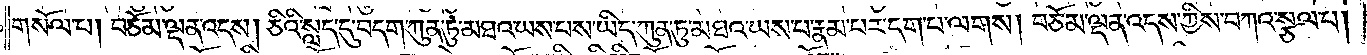གསོལ་པ། བཅོམ་ལྡན་འདས། ཅིའི་སླད་དུ་བདག་ཀུན་ཏུ་མཐའ་ཡས་པས། ཡིད་ཀུན་ཏུ་མཐའ་ཡས་པ་རྣམ་པར་དག་པ་ལགས། བཅོམ་ལྡན་འདས་ཀྱིས་བཀའ་སྩལ་པ།
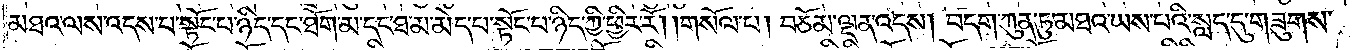མཐའ་ལས་འདས་པ་སྟོང་པ་ཉིད་དང་ཐོག་མ་དང་ཐ་མ་མེད་པ་སྟོང་པ་ཉིད་ཀྱི་ཕྱིར་རོ། །གསོལ་པ། བཅོམ་ལྡན་འདས། བདག་ཀུན་ཏུ་མཐའ་ཡས་པའི་སླད་དུ་གཟུགས་
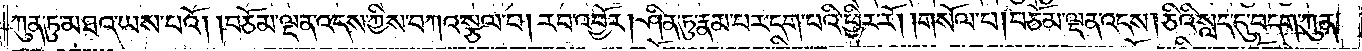ཀུན་ཏུ་མཐའ་ཡས་པའོ། །བཅོམ་ལྡན་འདས་ཀྱིས་བཀའ་སྩལ་པ། རབ་འབྱོར། ཤིན་ཏུ་རྣམ་པར་དག་པའི་ཕྱིར་རོ། །གསོལ་པ། བཅོམ་ལྡན་འདས། ཅིའི་སླད་དུ་བདག་ཀུན་
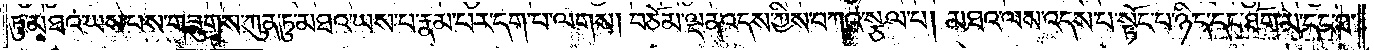ཏུ་མཐའ་ཡས་པས་གཟུགས་ཀུན་ཏུ་མཐའ་ཡས་པ་རྣམ་པར་དག་པ་ལགས། བཅོམ་ལྡན་འདས་ཀྱིས་བཀའ་སྩལ་པ། མཐའ་ལས་འདས་པ་སྟོང་པ་ཉིད་དང་ཐོག་མ་དང་ཐ་
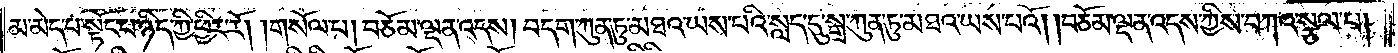མ་མེད་པ་སྟོང་པ་ཉིད་ཀྱི་ཕྱིར་རོ། །གསོལ་པ། བཅོམ་ལྡན་འདས། བདག་ཀུན་ཏུ་མཐའ་ཡས་པའི་སླད་དུ་སྒྲ་ཀུན་ཏུ་མཐའ་ཡས་པའོ། །བཅོམ་ལྡན་འདས་ཀྱིས་བཀའ་སྩལ་པ།
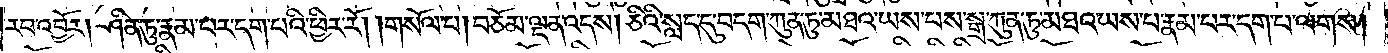རབ་འབྱོར། ཤིན་ཏུ་རྣམ་པར་དག་པའི་ཕྱིར་རོ། །གསོལ་པ། བཅོམ་ལྡན་འདས། ཅིའི་སླད་དུ་བདག་ཀུན་ཏུ་མཐའ་ཡས་པས་སྒྲ་ཀུན་ཏུ་མཐའ་ཡས་པ་རྣམ་པར་དག་པ་ལགས།
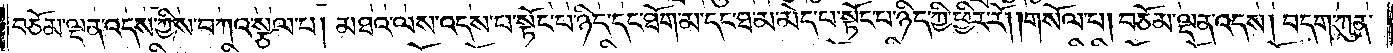བཅོམ་ལྡན་འདས་ཀྱིས་བཀའ་སྩལ་པ། མཐའ་ལས་འདས་པ་སྟོང་པ་ཉིད་དང་ཐོག་མ་དང་ཐ་མ་མེད་པ་སྟོང་པ་ཉིད་ཀྱི་ཕྱིར་རོ། །གསོལ་པ། བཅོམ་ལྡན་འདས། བདག་ཀུན་
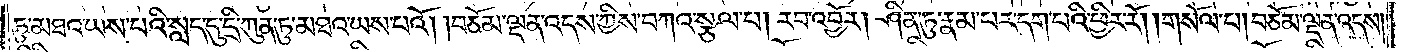ཏུ་མཐའ་ཡས་པའི་སླད་དུ་དྲི་ཀུན་ཏུ་མཐའ་ཡས་པའོ། བཅོམ་ལྡན་འདས་ཀྱིས་བཀའ་སྩལ་པ། རབ་འབྱོར། ཤིན་ཏུ་རྣམ་པར་དག་པའི་ཕྱིར་རོ། །གསོལ་པ། བཅོམ་ལྡན་འདས།
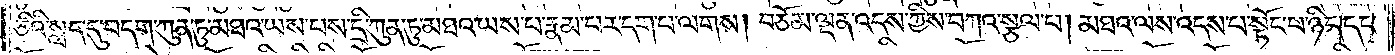ཅིའི་སླད་དུ་བདག་ཀུན་ཏུ་མཐའ་ཡས་པས་དྲི་ཀུན་ཏུ་མཐའ་ཡས་པ་རྣམ་པར་དག་པ་ལགས། བཅོམ་ལྡན་འདས་ཀྱིས་བཀའ་སྩལ་པ། མཐའ་ལས་འདས་པ་སྟོང་པ་ཉིད་དང་
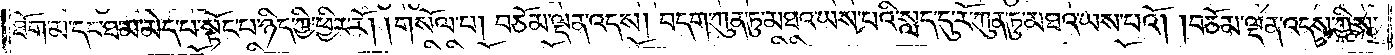ཐོག་མ་དང་ཐ་མ་མེད་པ་སྟོང་པ་ཉིད་ཀྱི་ཕྱིར་རོ། །གསོལ་པ། བཅོམ་ལྡན་འདས། བདག་ཀུན་ཏུ་མཐའ་ཡས་པའི་སླད་དུ་རོ་ཀུན་ཏུ་མཐའ་ཡས་པའོ། །བཅོམ་ལྡན་འདས་ཀྱིས་
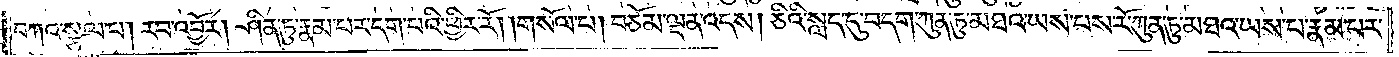བཀའ་སྩལ་པ། རབ་འབྱོར། ཤིན་ཏུ་རྣམ་པར་དག་པའི་ཕྱིར་རོ། །གསོལ་པ། བཅོམ་ལྡན་འདས། ཅིའི་སླད་དུ་བདག་ཀུན་ཏུ་མཐའ་ཡས་པས་རོ་ཀུན་ཏུ་མཐའ་ཡས་པ་རྣམ་པར་
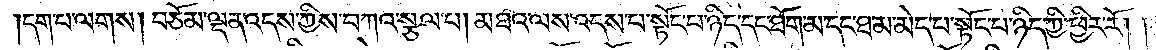དག་པ་ལགས། བཅོམ་ལྡན་འདས་ཀྱིས་བཀའ་སྩལ་པ། མཐའ་ལས་འདས་པ་སྟོང་པ་ཉིད་དང་ཐོག་མ་དང་ཐ་མ་མེད་པ་སྟོང་པ་ཉིད་ཀྱི་ཕྱིར་རོ། །
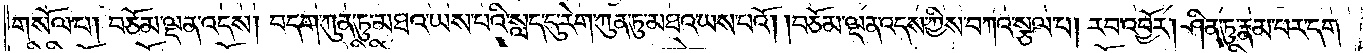གསོལ་པ། བཅོམ་ལྡན་འདས། བདག་ཀུན་ཏུ་མཐའ་ཡས་པའི་སླད་དུ་རེག་ཀུན་ཏུ་མཐའ་ཡས་པའོ། །བཅོམ་ལྡན་འདས་ཀྱིས་བཀའ་སྩལ་པ། རབ་འབྱོར། ཤིན་ཏུ་རྣམ་པར་དག་
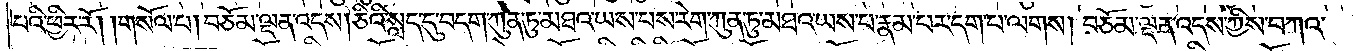པའི་ཕྱིར་རོ། །གསོལ་པ། བཅོམ་ལྡན་འདས། ཅིའི་སླད་དུ་བདག་ཀུན་ཏུ་མཐའ་ཡས་པས་རེག་ཀུན་ཏུ་མཐའ་ཡས་པ་རྣམ་པར་དག་པ་ལགས། བཅོམ་ལྡན་འདས་ཀྱིས་བཀའ་
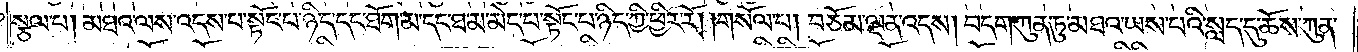སྩལ་པ། མཐའ་ལས་འདས་པ་སྟོང་པ་ཉིད་དང་ཐོག་མ་དང་ཐ་མ་མེད་པ་སྟོང་པ་ཉིད་ཀྱི་ཕྱིར་རོ། །གསོལ་པ། བཅོམ་ལྡན་འདས། བདག་ཀུན་ཏུ་མཐའ་ཡས་པའི་སླད་དུ་ཆོས་ཀུན་
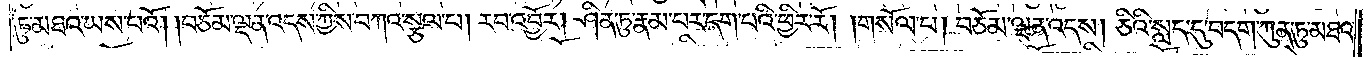ཏུ་མཐའ་ཡས་པའོ། །བཅོམ་ལྡན་འདས་ཀྱིས་བཀའ་སྩལ་པ། རབ་འབྱོར། ཤིན་ཏུ་རྣམ་པར་དག་པའི་ཕྱིར་རོ། །གསོལ་པ། བཅོམ་ལྡན་འདས། ཅིའི་སླད་དུ་བདག་ཀུན་ཏུ་མཐའ་
